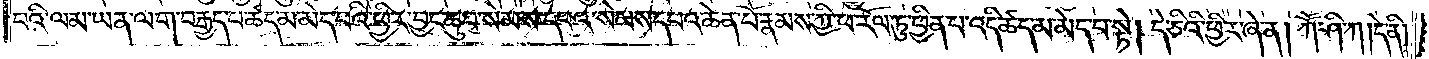པའི་ལམ་ཡན་ལག་བརྒྱད་པ་ཚད་མ་མེད་པའི་ཕྱིར་བྱང་ཆུབ་སེམས་དཔའ་སེམས་དཔའ་ཆེན་པོ་རྣམས་ཀྱི་ཕ་རོལ་ཏུ་ཕྱིན་པ་འདི་ཚད་མ་མེད་པ་སྟེ། དེ་ཅིའི་ཕྱིར་ཞེ་ན། ཀཽ་ཤི་ཀ །དེ་ནི།
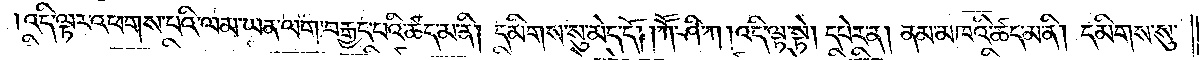འདི་ལྟར་འཕགས་པའི་ལམ་ཡན་ལག་བརྒྱད་པའི་ཚད་མ་ནི། དམིགས་སུ་མེད་དོ། །ཀཽ་ཤི་ཀ །འདི་ལྟ་སྟེ། དཔེར་ན། ནམ་མཁའི་ཚད་མ་ནི། དམིགས་སུ་
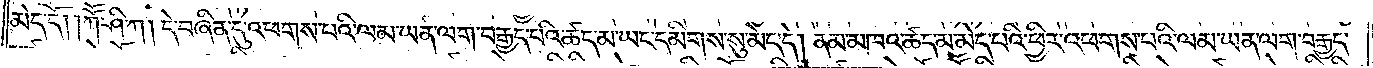མེད་དོ། །ཀཽ་ཤི་ཀ །དེ་བཞིན་ཏུ་འཕགས་པའི་ལམ་ཡན་ལག་བརྒྱད་པའི་ཚད་མ་ཡང་དམིགས་སུ་མེད་དེ། ནམ་མཁའ་ཚད་མ་མེད་པའི་ཕྱིར་འཕགས་པའི་ལམ་ཡན་ལག་བརྒྱད་
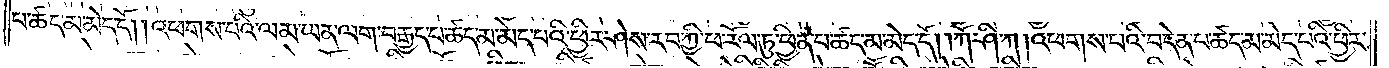པ་ཚད་མ་མེད་དོ༎ འཕགས་པའི་ལམ་ཡན་ལག་བརྒྱད་པ་ཚད་མ་མེད་པའི་ཕྱིར་ཤེས་རབ་ཀྱི་ཕ་རོལ་ཏུ་ཕྱིན་པ་ཚད་མ་མེད་དོ། །ཀཽ་ཤི་ཀ །འཕགས་པའི་བདེན་པ་ཚད་མ་མེད་པའི་ཕྱིར་
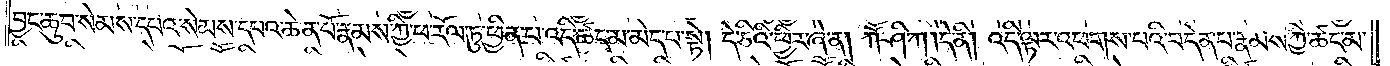བྱང་ཆུབ་སེམས་དཔའ་སེམས་དཔའ་ཆེན་པོ་རྣམས་ཀྱི་ཕ་རོལ་ཏུ་ཕྱིན་པ་འདི་ཚད་མ་མེད་པ་སྟེ། དེ་ཅིའི་ཕྱིར་ཞེ་ན། ཀཽ་ཤི་ཀ །དེ་ནི། འདི་ལྟར་འཕགས་པའི་བདེན་པ་རྣམས་ཀྱི་ཚད་མ་
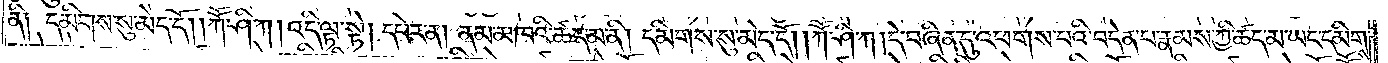ནི༑ དམིགས་སུ་མེད་དོ། །ཀཽ་ཤི་ཀ །འདི་ལྟ་སྟེ། དཔེར་ན། ནམ་མཁའི་ཚད་མ་ནི། དམིགས་སུ་མེད་དོ། །ཀཽ་ཤི་ཀ །དེ་བཞིན་དུ་འཕགས་པའི་བདེན་པ་རྣམས་ཀྱི་ཚད་མ་ཡང་དམིགས་
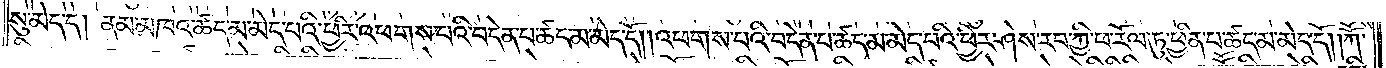སུ་མེད་དེ། ནམ་མཁའ་ཚད་མ་མེད་པའི་ཕྱིར་འཕགས་པའི་བདེན་པ་ཚད་མ་མེད་དོ། །འཕགས་པའི་བདེན་པ་ཚད་མ་མེད་པའི་ཕྱིར་ཤེས་རབ་ཀྱི་ཕ་རོལ་ཏུ་ཕྱིན་པ་ཚད་མ་མེད་དོ། །ཀཽ་
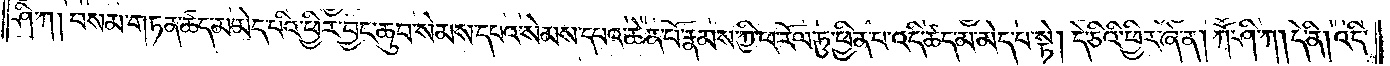ཤི་ཀ །བསམ་གཏན་ཚད་མ་མེད་པའི་ཕྱིར་བྱང་ཆུབ་སེམས་དཔའ་སེམས་དཔའ་ཆེན་པོ་རྣམས་ཀྱི་ཕ་རོལ་ཏུ་ཕྱིན་པ་འདི་ཚད་མ་མེད་པ་སྟེ། དེ་ཅིའི་ཕྱིར་ཞེ་ན། ཀཽ་ཤི་ཀ །དེ་ནི། འདི་
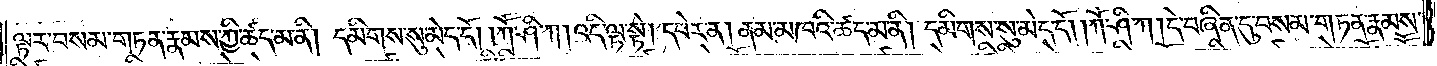ལྟར་བསམ་གཏན་རྣམས་ཀྱི་ཚད་མ་ནི། དམིགས་སུ་མེད་དོ། །ཀཽ་ཤི་ཀ། འདི་ལྟ་སྟེ། དཔེར་ན། ནམ་མཁའི་ཚད་མ་ནི། དམིགས་སུ་མེད་དོ། །ཀཽ་ཤི་ཀ །དེ་བཞིན་དུ་བསམ་གཏན་རྣམས་
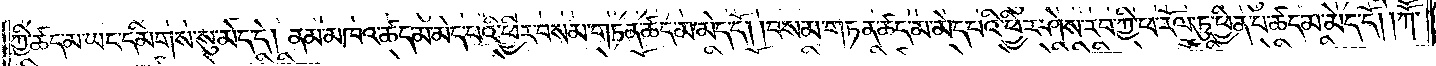ཀྱི་ཚད་མ་ཡང་དམིགས་སུ་མེད་དེ། ནམ་མཁའ་ཚད་མ་མེད་པའི་ཕྱིར་བསམ་གཏན་ཚད་མེད་དོ། །བསམ་གཏན་ཚད་མ་མེད་པའི་ཕྱིར་ཤེས་རབ་ཀྱི་ཕ་རོལ་ཏུ་ཕྱིན་པ་ཚད་མ་མེད་དོ། །ཀཽ་
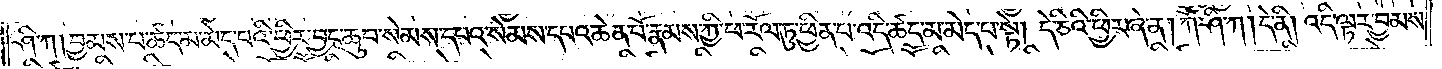ཤི་ཀ །བྱམས་པ་ཚད་མ་མེད་པའི་ཕྱིར་བྱང་ཆུབ་སེམས་དཔའ་སེམས་དཔའ་ཆེན་པོ་རྣམས་ཀྱི་ཕ་རོལ་ཏུ་ཕྱིན་པ་འདི་ཚད་མ་མེད་པ་སྟེ། དེ་ཅིའི་ཕྱིར་ཞེ་ན། ཀཽ་ཤི་ཀ །དེ་ནི། འདི་ལྟར་བྱམས་
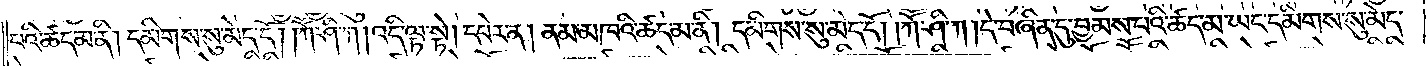པའི་ཚད་མ་ནི། དམིགས་སུ་མེད་དོ། །ཀཽ་ཤི་ཀ །འདི་ལྟ་སྟེ། དཔེར་ན། ནམ་མཁའི་ཚད་མ་ནི། དམིགས་སུ་མེད་དེ། །ཀཽ་ཤི་ཀ །དེ་བཞིན་དུ་བྱམས་པའི་ཚད་མ་ཡང་དམིགས་སུ་མེད་
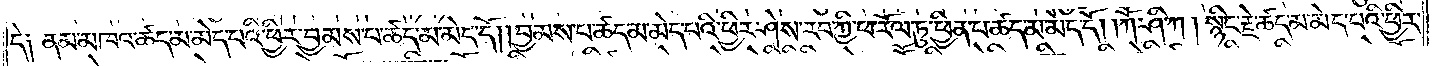དེ༑ ནམ་མཁའ་ཚད་མ་མེད་པའི་ཕྱིར་བྱམས་པ་ཚད་མ་མེད་དོ། །བྱམས་པ་ཚད་མ་མེད་པའི་ཕྱིར་ཤེས་རབ་ཀྱི་ཕ་རོལ་ཏུ་ཕྱིན་པ་ཚད་མ་མེད་དོ། །ཀཽ་ཤི་ཀ །སྙིང་རྗེ་ཚད་མ་མེད་པའི་ཕྱིར་
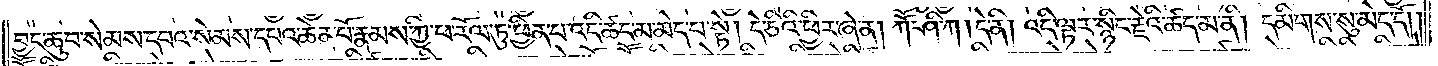བྱང་ཆུབ་སེམས་དཔའ་སེམས་དཔའ་ཆེན་པོ་རྣམས་ཀྱི་ཕ་རོལ་ཏུ་ཕྱིན་པ་འདི་ཚད་མ་མེད་པ་སྟེ། དེ་ཅིའི་ཕྱིར་ཞེ་ན། ཀཽ་ཤི་ཀ །དེ་ནི། འདི་ལྟར་སྙིང་རྗེའི་ཚད་མ་ནི། དམིགས་སུ་མེད་དོ༎
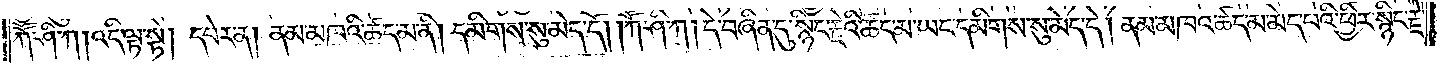ཀཽ་ཤི་ཀ །འདི་ལྟ་སྟེ། དཔེར་ན། ནམ་མཁའི་ཚད་མ་ནི། དམིགས་སུ་མེད་དོ། །ཀཽ་ཤི་ཀ །དེ་བཞིན་དུ་སྙིང་རྗེའི་ཚད་མ་ཡང་དམིགས་སུ་མེད་དེ། ནམ་མཁའ་ཚད་མ་མེད་པའི་ཕྱིར་སྙིང་རྗེ་
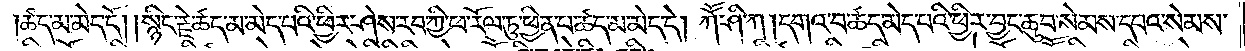ཚད་མ་མེད་དོ། །སྙིང་རྗེ་ཚད་མ་མེད་པའི་ཕྱིར་ཤེས་རབ་ཀྱི་ཕ་རོལ་ཏུ་ཕྱིན་པ་ཚད་མ་མེད་དེ། ཀཽ་ཤི་ཀ །དགའ་བ་ཚད་མ་མེད་པའི་ཕྱིར་བྱང་ཆུབ་སེམས་དཔའ་སེམས་
